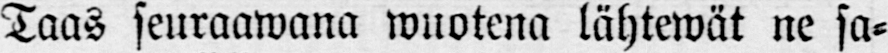Taas seuraawana wuotena lähtewät ne sa-
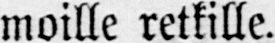moille retkille.
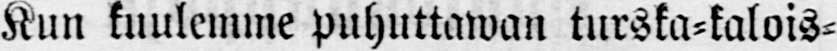Kun kuulemme puhuttawan turska-kalois-
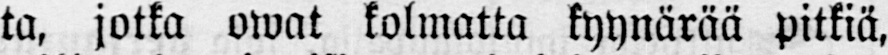ta, jotka owat kolmatta kyynärää pitkiä,
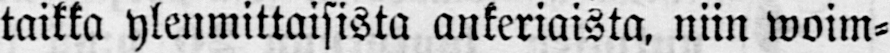taikka ylenmittaisista ankeriaista, niin woim-
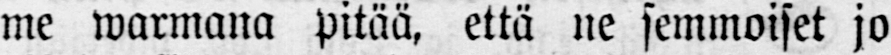me warmana pitää, että ne semmoiset jo
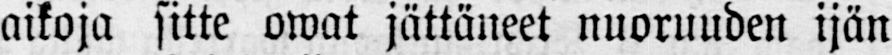aikoja sitte owat jättäneet nuoruuden ijän
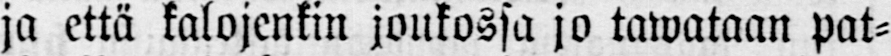ja että kalojenkin joukossa jo tawataan pat-
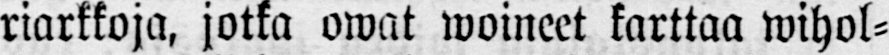riarkkoja, jotka owat woineet karttaa wihol-
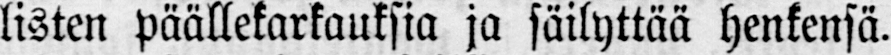listen päällekarkauksia ja säilyttää henkensä.
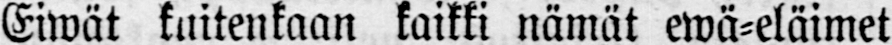Eiwät kuitenkaan kaikki nämät ewä-eläimet
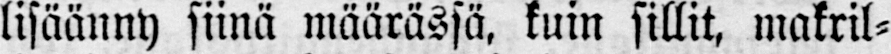lisäänny siinä määrässä, kuin sillit, makril-
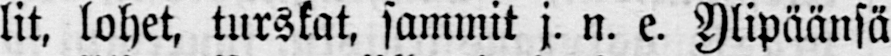lit, lohet, turskat, sammit j. n. e. Ylipäänsä
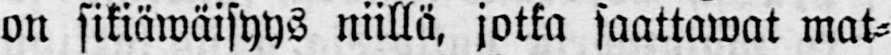on sikiäwäisyys niillä, jotka saattawat mat-
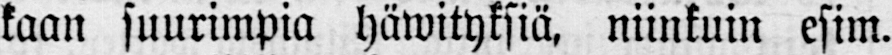kaan suurimpia häwityksiä, niinkuin esim.
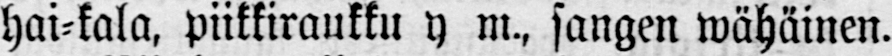hai-kala, piikkiraukku y m., sangen wähäinen.
